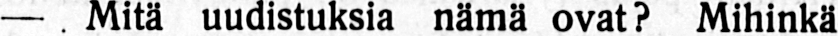— Mitä uudistuksia nämä ovat? Mihinkä
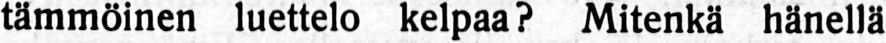tämmöinen luettelo kelpaa? Mitenkä hänellä
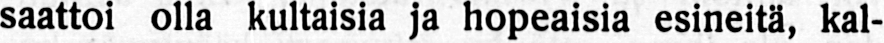saattoi olla kultaisia ja hopeaisia esineitä, kal-
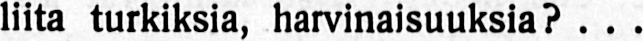liita turkiksia, harvinaisuuksia? . . .
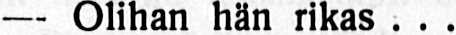— Olihan hän rikas . . .
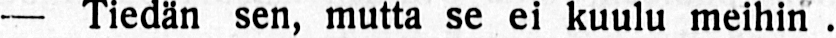— Tiedän sen, mutta se ei kuulu meihin.
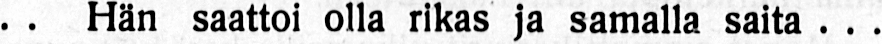. . Hän saattoi olla rikas ja samalla saita . . .
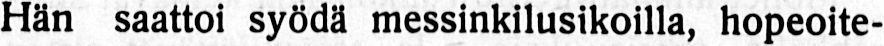Hän saattoi syödä messinkilusikoilla, hopeoite-
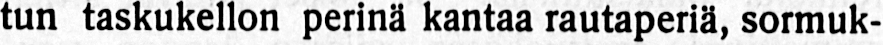tun taskukellon perinä kantaa rautaperiä, sormuk-
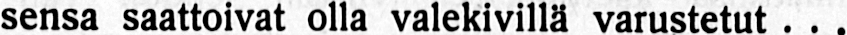sensa saattoivat olla valekivillä varustetut . . .
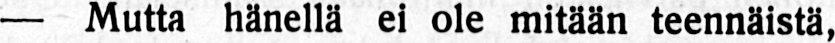— Mutta hänellä ei ole mitään teennäistä,
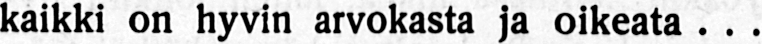kaikki on hyvin arvokasta ja oikeata . . .
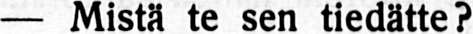— Mistä te sen tiedätte?
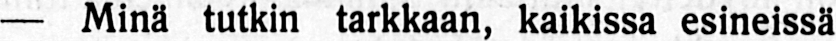— Minä tutkin tarkkaan, kaikissa esineissä
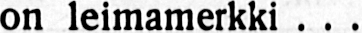on leimamerkki . . .
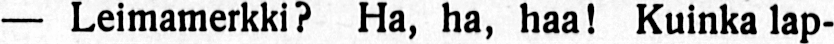— Leimamerkki? Ha, ha, haa! Kuinka lap-
